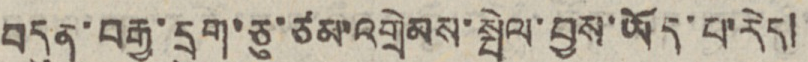བདུན་བརྒྱ་དྲུག་ཅུ་ཙམ་འགྲེམས་སྤེལ་བྱས་ཡོད་པ་རེད།
